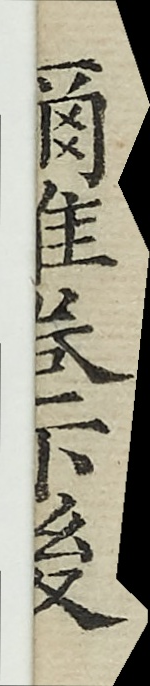爾雅卷下後
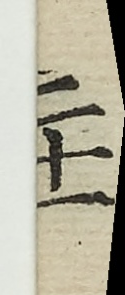二十一
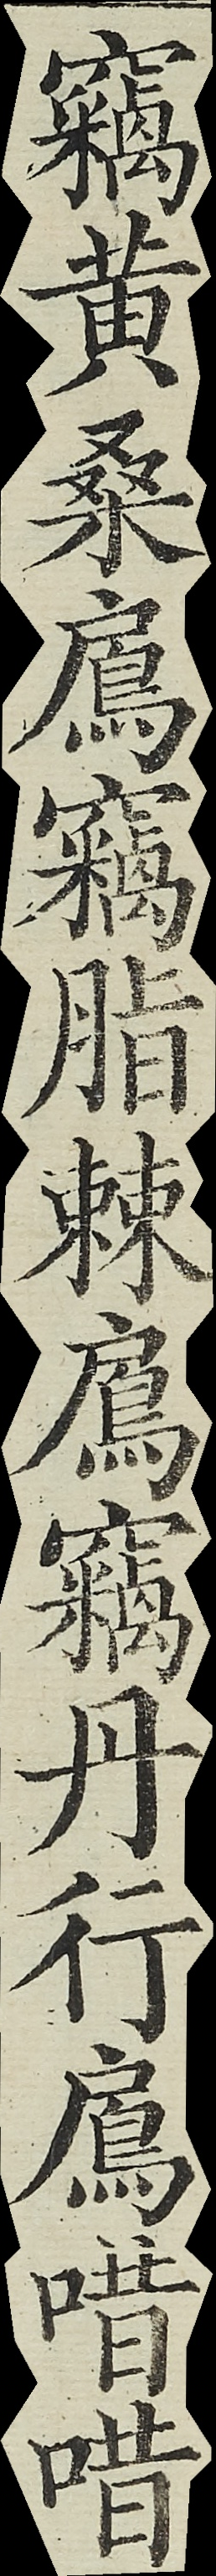竊黃桑鳸竊脂棘鳸竊丹行鳸唶唶
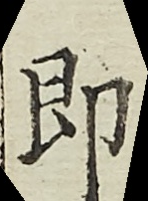即
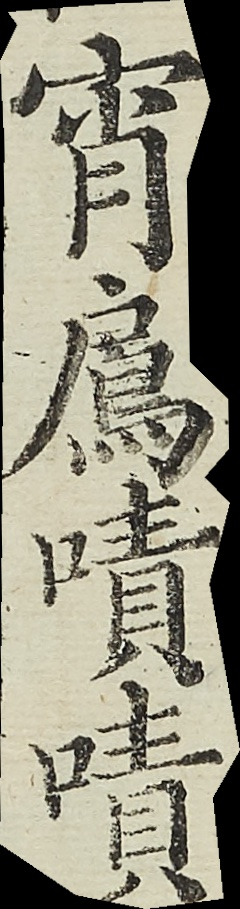宵鳸嘖嘖
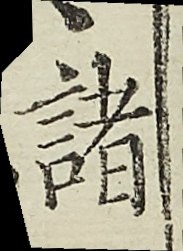諸
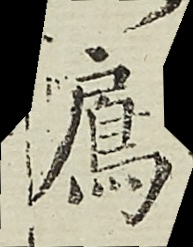鳸
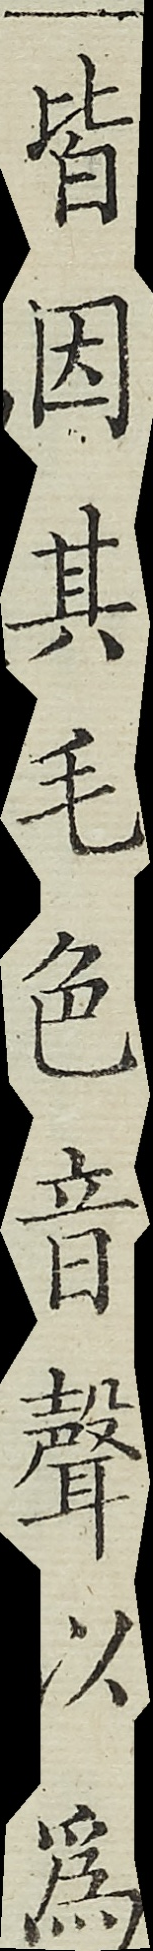皆因其毛色音聲以為
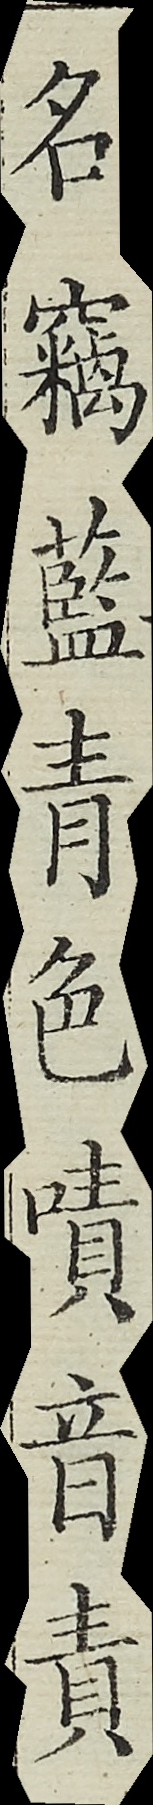名竊藍青色嘖音責
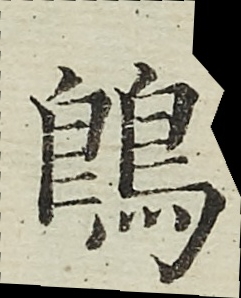鵖
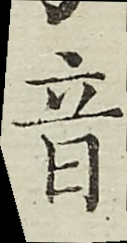音
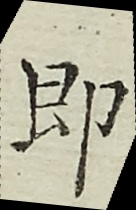即
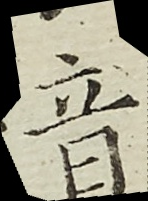音
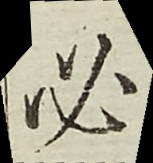必
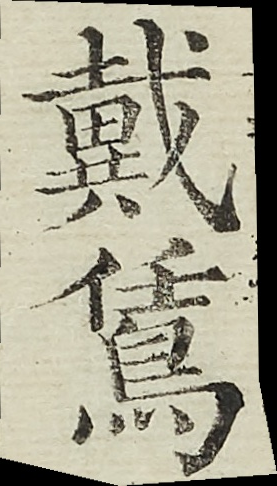戴鵀
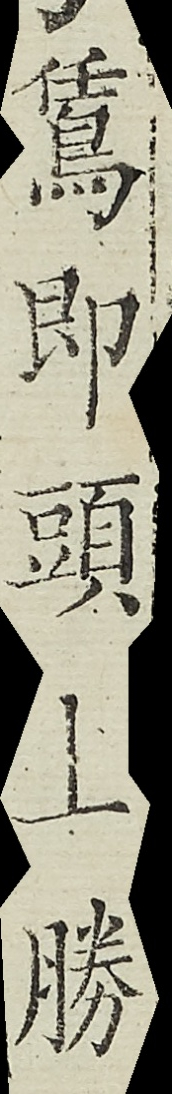鵀即頭上勝
